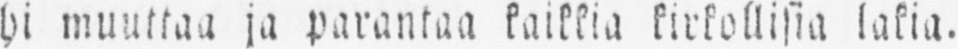hi muuttaa ja parantaa kaikkia kirkollisia lakia.
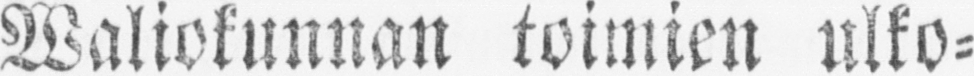Waliokunnan toimien ulko-
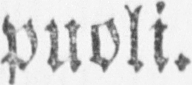puoli.
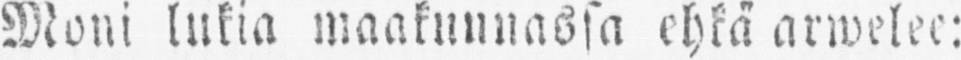Moni lukia maakunnassa ehkä arwelee:
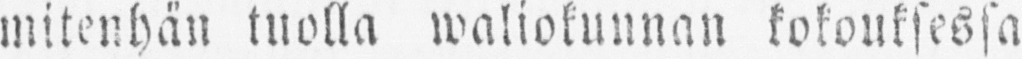mitenhän tuolla waliokunnan kokouksessa
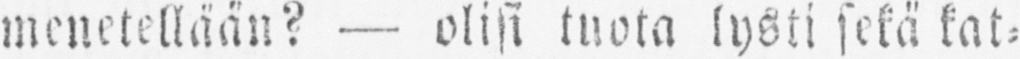menetellään? — olisi tuota lysti sekä kat-
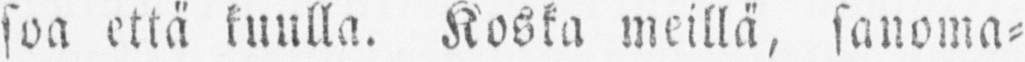soa että kuulla. Koska meillä, sanoma-
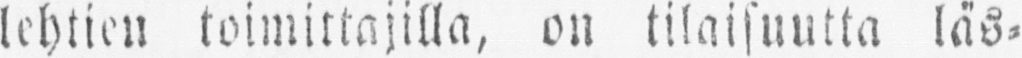lehtien toimittajilla, on tilaisuutta läs-
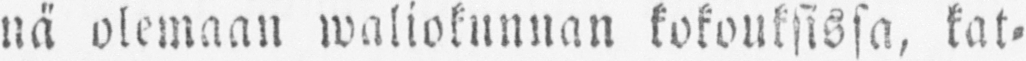nä olemaan waliokunnan kokouksissa, kat-
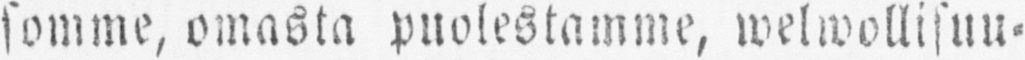somme, omasta puolestamme, welwollisuu-
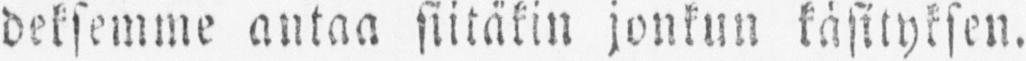deksemme antaa siitäkin jonkun käsityksen.
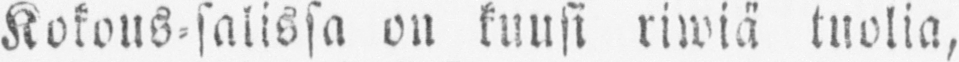Kokous-salissa on kuusi riwiä tuolia,
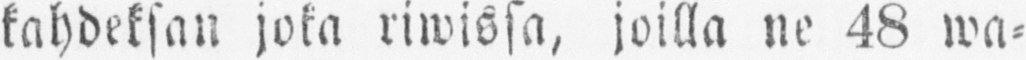kahdeksan joka riwissa, joilla ne 48 wa-
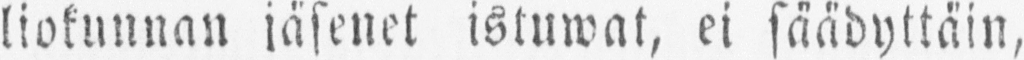liokunnan jäsenet istuwat, ei säädyttäin,
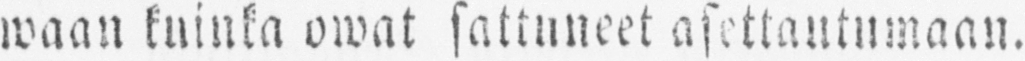waan kuinka owat sattuneet asettautumaan.
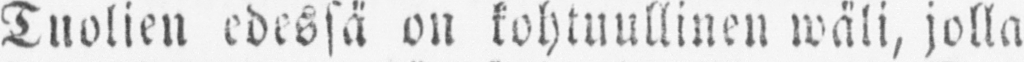Tuolien edessä on kohtuullinen wäli, jolla
